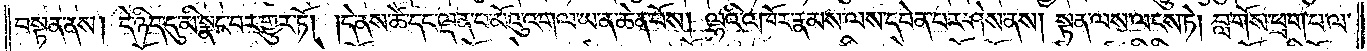བསྟན་ནས། དེ་ཉིད་དུ་མི་སྣང་བར་གྱུར་ཏོ། །དེ་ནས་ཚེ་དང་ལྡན་པ་མོའུ་འགལ་ཡ་ན་ཆེན་པོས། ལྷའི་འཁོར་རྣམས་ལས་དབེན་པར་ཤེས་ནས། སྟན་ལས་ལངས་ཏེ། བླ་གོས་ཕྲག་པ་ལ་
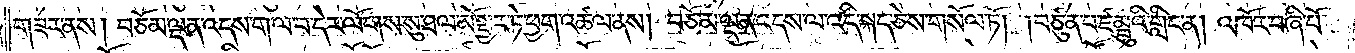གཟར་ནས། བཅོམ་ལྡན་འདས་ག་ལ་བ་དེར་ལོངས་སུ་ཐལ་མོ་སྦྱར་ཏེ་ཕྱག་འཚལ་ནས། བཅོམ་ལྡན་འདས་ལ་འདི་སྐད་ཅེས་གསོལ་ཏོ། །བཙུན་པ་ཛམྦུའི་གླིང་ན། འཁོར་བཞི་པོ་
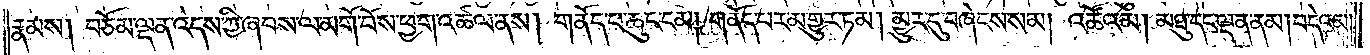རྣམས། བཅོམ་ལྡན་འདས་ཀྱི་ཞབས་ལ་མགོ་བོས་ཕྱག་འཚལ་ནས། གནོད་པ་ཆུང་ངམ། གནོད་པར་མ་གྱུར་ཏམ། མྱུར་དུ་བཞེངས་སམ། འཚོའམ། མཐུ་དང་ལྡན་ནམ། བདེའམ།
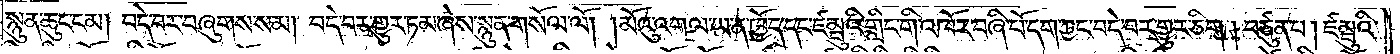སྙུན་ཆུང་ངམ། བདེ་བར་བཞུགས་སམ། བདེ་བར་གྱུར་ཏམ་ཞེས་སྙུན་གསོལ་ལོ། །མོའུ་འགལ་ཡ་ན་ཁྱོད་དང་ཛམྦུའི་གླིང་གི་འཁོར་བཞི་པོ་དག་ཀྱང་བདེ་བར་གྱུར་ཅིག །བཙུན་པ། ཛམྦུའི་
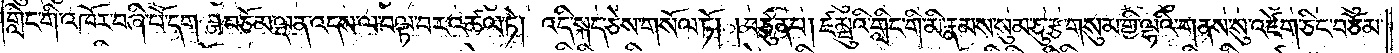གླིང་གི་འཁོར་བཞི་པོ་དག །བཅོམ་ལྡན་འདས་ལ་བལྟ་བར་འཚལ་ཏེ། འདི་སྐད་ཅེས་གསོལ་ཏོ། །བཙུན་པ། ཛམྦུའི་གླིང་གི་མི་རྣམས་སུམ་ཅུ་རྩ་གསུམ་གྱི་ལྷའི་གནས་སུ་འཛེག་ཅིང་བཅོམ་
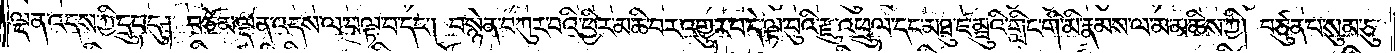ལྡན་འདས་ཀྱི་དྲུང་དུ། བཅོམ་ལྡན་འདས་ལ་བལྟ་བ་དང༌། བསྙེན་བཀུར་བའི་ཕྱིར་མཆི་བར་འགྱུར་བ་དེ་ལྟ་བུའི་རྫུ་འཕྲུལ་དང་མཐུ་ཛམྦུའི་གླིང་གི་མི་རྣམས་ལ་མ་མཆིས་ཀྱི། བཙུན་པ་སུམ་ཅུ་
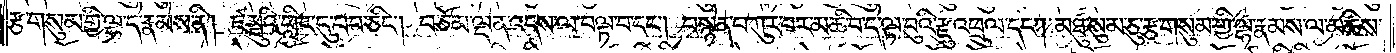རྩ་གསུམ་གྱི་ལྷ་དེ་རྣམས་ནི། ཛམྦུའི་གླིང་དུ་བབ་ཅིང༌། བཅོམ་ལྡན་འདས་ལ་བལྟ་བ་དང༌། བསྙེན་བཀུར་བར་མཆི་བ་དེ་ལྟ་བུའི་རྫུ་འཕྲུལ་དང༌། མཐུ་སུམ་ཅུ་རྩ་གསུམ་གྱི་ལྷ་རྣམས་ལ་མཆིས་
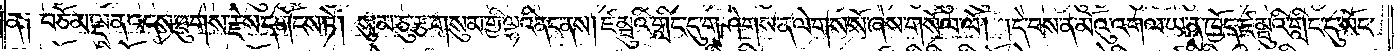ན༑ བཅོམ་ལྡན་འདས་ཐུགས་རྗེས་དགོངས་ཏེ། སུམ་ཅུ་རྩ་གསུམ་གྱི་ལྷའི་ནང་ནས། ཛམྦུའི་གླིང་དུ་གཤེགས་ན་ལེགས་སོ་ཞེས་གསོལ་ལོ། །དེ་བས་ན་མོའུ་འགལ་ཡ་ན་ཁྱོད་ཛམྦུའི་གླིང་དུ་སོང་
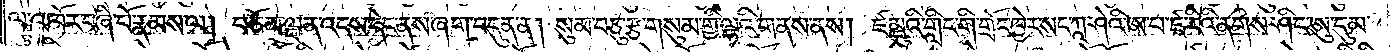ལ་འཁོར་བཞི་པོ་རྣམས་ལ། བཅོམ་ལྡན་འདས་དེང་ནས་ཞག་བདུན་ན། སུམ་བཅུ་རྩ་གསུམ་གྱི་ལྷའི་གནས་ནས། ཛམྦུའི་གླིང་གི་གྲོང་ཁྱེར་སང་ཀཱ་ཤེའི་ཨ་པ་ཛ་རིའི་ནགས་ཤིང་ཨུ་དུམ་
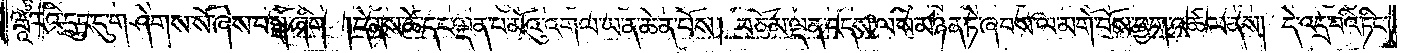ཝཱ་རའི་དྲུང་དུ་གཤེགས་སོ་ཞེས་བསྒོ་ཞིག །དེ་ནས་ཚེ་དང་ལྡན་པ་མོའུ་འགལ་ཡ་ན་ཆེན་པོས། བཅོམ་ལྡན་འདས་ལས་མཉན་ཏེ་ཞབས་ལ་མགོ་བོས་ཕྱག་འཚལ་ནས། དེ་འདྲ་བའི་ཏིང་
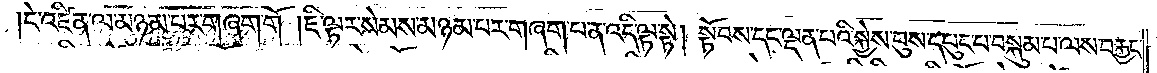ངེ་འཛིན་ལ་མཉམ་པར་གཞག་གོ །ཇི་ལྟར་སེམས་མཉམ་པར་གཞག་པ་ན་འདི་ལྟ་སྟེ། སྟོབས་དང་ལྡན་པའི་སྐྱེས་བུས་དཔུང་པ་བསྐུམ་པ་ལས་བརྐྱང་
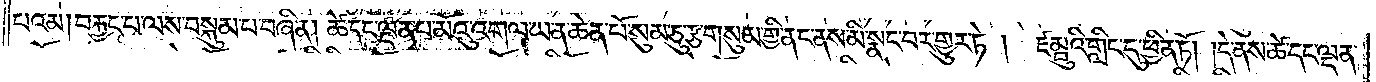པའམ། བརྐྱང་པ་ལས་བསྐུམ་པ་བཞིན། ཚེ་དང་ལྡན་པ་མོའུ་འགལ་ཡན་ཆེན་པོ་སུམ་ཅུ་རྩ་གསུམ་གྱི་ནང་ནས་མི་སྣང་བར་གྱུར་ཏེ། ཛམྦུའི་གླིང་དུ་ཕྱིན་ཏོ། །དེ་ནས་ཚེ་དང་ལྡན་
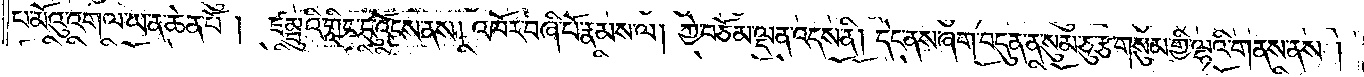པ་མོའུ་འགལ་ཡ་ན་ཆེན་པོ། ཛམྦུའི་གླིང་དུ་འོངས་ནས། འཁོར་བཞི་པོ་རྣམས་ལ། ཀྱེ་བཅོམ་ལྡན་འདས་ནི། དེང་ནས་ཞག་བདུན་ན་སུམ་ཅུ་རྩ་གསུམ་གྱི་ལྷའི་གནས་ནས།
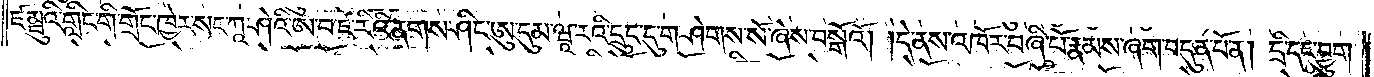ཛམྦུའི་གླིང་གི་གྲོང་ཁྱེར་སང་ཀཱ་ཤེའི་ཨ་བ་ཛ་རིའི་ནགས་ཤིང་ཨུ་དུམ་ཝཱ་རའི་དྲུང་དུ་གཤེགས་སོ་ཞེས་བསྒོའོ། །དེ་ནས་འཁོར་བཞི་པོ་རྣམས་ཞག་བདུན་པོ་ན། དྲི་དང་བྱུག་
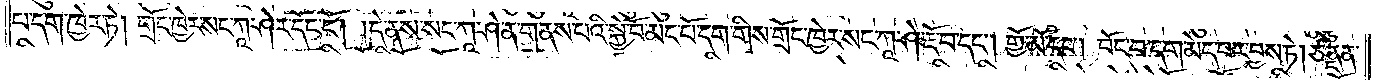པ་དག་ཁྱེར་ཏེ། གྲོང་ཁྱེར་སང་ཀཱ་ཤེར་དོང་ངོ༌། །དེ་ནས་སང་ཀཱ་ཤེ་ན་གནས་པའི་སྐྱེ་བོ་མང་པོ་དག་གིས་གྲོང་ཁྱེར་སང་ཀཱ་ཤེ་རྡོ་བ་དང༌། གྱོ་མོ་དང༌། བོང་བ་དག་མེད་པར་བྱས་ཏེ། ཙནྡན་
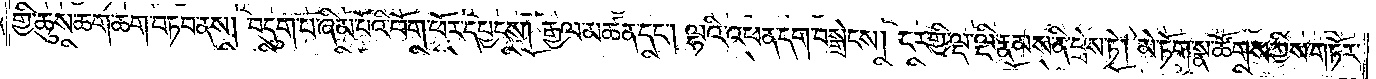གྱི་ཆུས་ཆག་ཆག་བཏབ་ནས། བདུག་པ་ཞིམ་པོའི་པོག་ཕོར་དཔྱངས། རྒྱལ་མཚན་དང༌། ལྷའི་འཕན་དག་བསྒྲེངས། ངར་གྱི་ལྡ་ལྡི་རྣམས་ནི་བྲེས་ཏེ། མེ་ཏོག་སྣ་ཚོགས་ཀྱིས་གཏོར་
